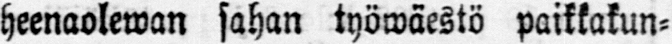heenaolewan sahan työwäestö paikkakun-
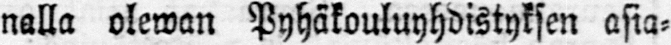nalla olewan Pyhäkouluyhdistyksen asia-
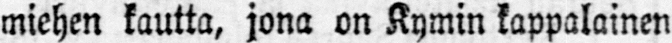miehen kautta, jona on Kymin kappalainen
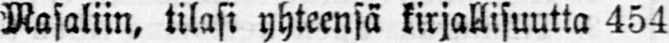Masaliin, tilasi yhteensä kirjallisuutta 454
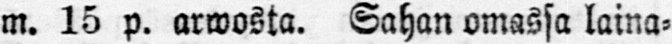m. 15 p. arwosta. Sahan omassa laina-
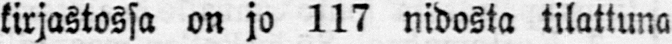kirjastossa on jo 117 nidosta tilattuna
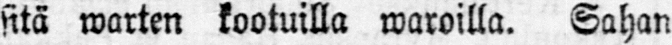sitä warten kootuilla waroilla. Sahan
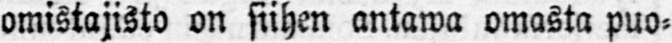omistajista on siihen antawa omasta puo-
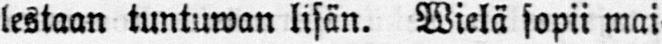lestaan tuntuwan lisän. Wielä sopii mai-
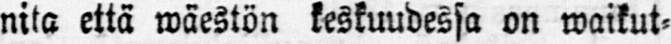nita että wäestön keskuudessa on waikut-
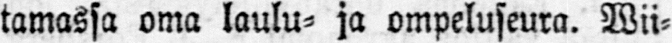tamassa oma laulu- ja ompeluseura. Wii-
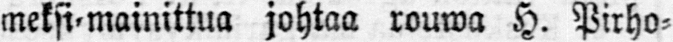meksi-mainittua johtaa rouwa H. Pirho-
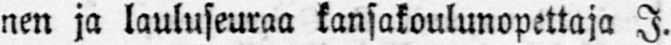nen ja lauluseuraa kansakoulunopettaja I.
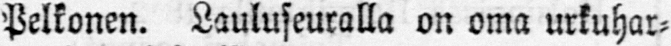Pelkonen. Lauluseuralla on oma urkuhar-
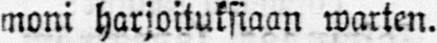moni harjoituksiaan warten.
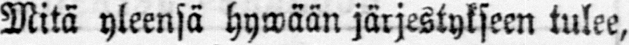Mitä yleensä hywään järjestykseen tulee,
